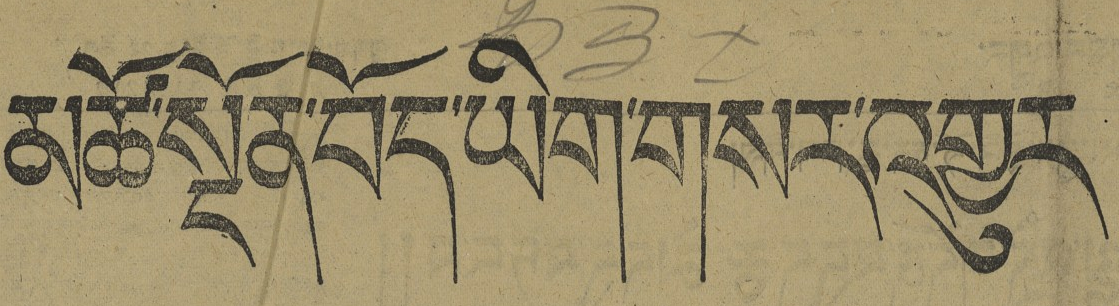མཚོ་སྔོན་བོད་ཡིག་གསར་འགྱུར
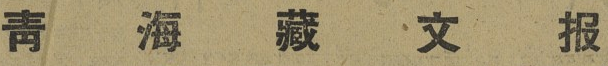靑 海 藏 文 報
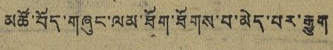མཚོ་བོད་གཞུང་ལམ་ཐོག་ཐོགས་པ་མེད་པར་རྒྱུག
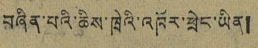བཞིན་པའི་ཆིས་ཁྲེའི་འཁོར་ཕྲེང་ཡིན།
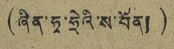(ཞིན་ཧྭ་ཧྲེའི་ས་བོན།)
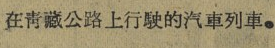在青藏公路上行駛的汽車列車。
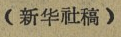（新华社稿）
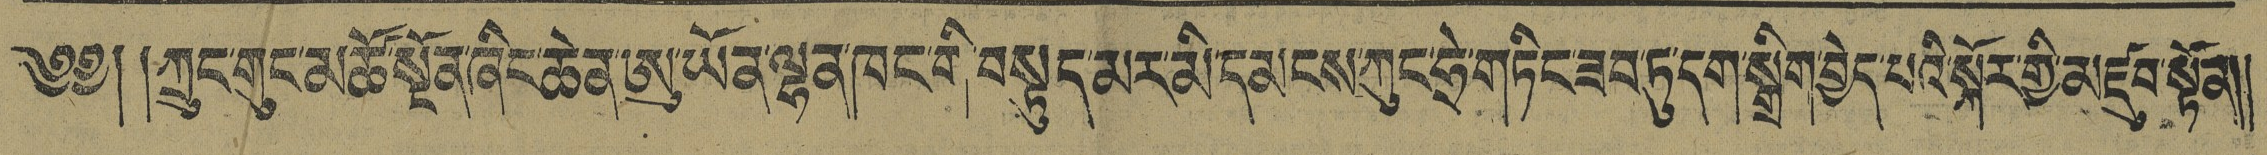༄༅། །ཀྲུང་གུང་མཚོ་སྔོན་ཞིང་ཆེན་ཨུ་ཡོན་ལྷན་ཁང་གི་བསྟུད་མར་མི་དམངས་ཀུང་ཧྲེ་གཏིང་ཟབ་ཏུ་དག་སྒྲིག་བྱེད་པའི་སྐོར་གྱི་མཛུབ་སྟོན༎
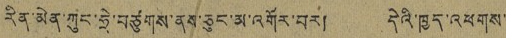རིན་མེན་ཀུང་ཧྲེ་བཙུགས་ནས་ཅུང་མ་འགོར་བར། དེའི་ཁྱད་འཕགས་
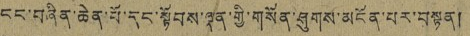དང་བཞིན་ཆེན་པོ་དང་སྟོབས་སྡན་གྱི་གསོན་ཤུགས་མངོན་པར་བསྟན།
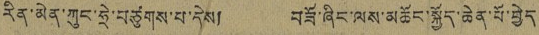རིན་མེན་ཀུང་ཧྲེ་བཙུགས་པ་དེས། བཟོ་ཞིང་ལས་མཆོང་སྐྱོད་ཆེན་པོ་བྱེད
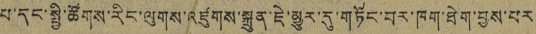པ་དང་སྤྱི་ཚོགས་རིང་ལུགས་འཛུགས་སྐྲུན་ཇེ་མྱུར་དུ་གཏོང་བར་ཁག་ཐེག་བྱས་པར
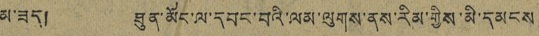མ་ཟད། ཐུན་མོང་ལ་དབང་བའི་ལམ་ལུགས་ནས་རིམ་གྱིས་མི་དམངས
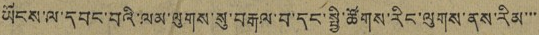ཡོངས་ལ་དབང་བའི་ལམ་ལུགས་སུ་བརྒལ་བ་དང་སྤྱི་ཚོགས་རིང་ལུགས་ནས་རིམ་་་
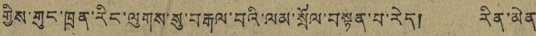གྱིས་ཀྱང་ཁྲན་རིང་ལུགས་སུ་བརྒལ་བའི་ལམ་སྲོལ་བསྟན་པ་རེད། རིན་མེན
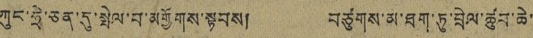ཀུང་ཧྲེ་ཅན་དུ་སྤེལ་བ་མགྱོགས་སྟབས། བཙུགས་མ་ཐག་ཏུ་བྲེལ་ཚུབ་ཆེ་
